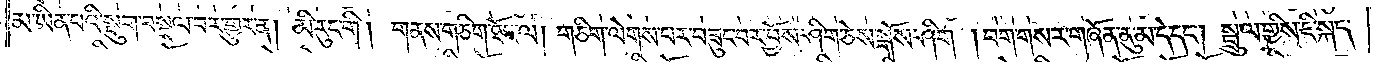མ་ཡིན་པའི་སྡུག་བསྔལ་བར་གྱུར་ན། མི་རུང་གི། གནས་གཅིག་ཐོང་ལ། གཅིག་ལེགས་པར་བཟུང་བར་བྱོས་ཤིག་ཅེས་སྒོས་ཤིག །བག་གསར་གཞོན་ནུ་མ་དེ་དང༌། སྤྲུལ་གྱིས་ཇི་སྐད་
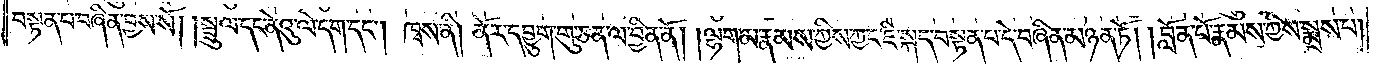བསྟན་པ་བཞིན་བྱས་སོ། །སྦྲུལ་དང་ནེའུ་ལེ་དག་དང༌། ཁྭས་ནི། ནོར་དབྱུག་གུ་ཅན་ལ་བྱིན་ནོ། །ལྷག་མ་རྣམས་ཀྱིས་ཀྱང་ཇི་སྐད་བསྟན་པ་དེ་བཞིན་མཉན་ཏོ། །བློན་པོ་རྣམས་ཀྱིས་སྨྲས་པ།
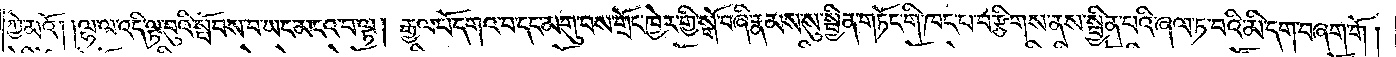ཀྱེ་མའོ། །ལྷ་ལ་འདི་ལྟ་བུའི་སྤོབས་པ་ཡང་མངའ་བ་ལྟ། རྒྱལ་པོ་དགའ་བ་དང་མགུ་བས་གྲོང་ཁྱེར་གྱི་སྒོ་བཞི་རྣམས་སུ་སྦྱིན་གཏོང་གི་ཁང་པ་བརྩིགས་ནས་སྦྱིན་པའི་ཞལ་ཏ་པའི་མི་དག་བཞག་གོ །
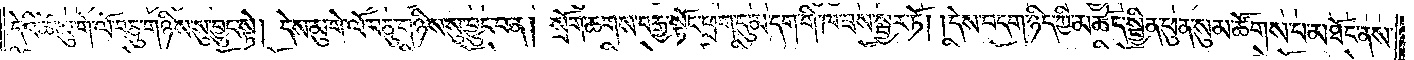དེའི་ཚེ་མུ་གེ་ལོ་བཅུ་གཉིས་སུ་བྱུང་སྟེ། དེས་མུ་གེ་ལོ་བཅུ་གཉིས་སུ་བྱུང་བ་ན། སྲོག་ཆགས་བརྒྱ་སྟོང་ཕྲག་དུ་མ་དག་གི་ཁ་ཟས་སྦྱར་ཏོ། །དེས་བདག་ཉིད་ཀྱི་མཆོད་སྦྱིན་ཕུན་སུམ་ཚོགས་པ་མཐོང་ནས་
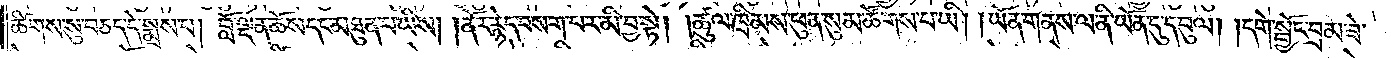ཚིགས་སུ་བཅད་དེ་སྨྲས་པ། བློ་ལྡན་ཆོས་དང་མཐུན་པ་ཡིས། ནོར་རྙེད་བསག་པར་མི་བྱ་སྟེ། །ཚུལ་ཁྲིམས་ཕུན་སུམ་ཚོགས་པ་ཡི། །ཡོན་གནས་ལ་ནི་ཡོན་དུ་དབུལ། །དགེ་སྦྱོང་བྲམ་ཟེ་
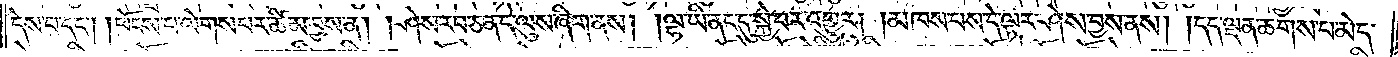དེས་པ་དང༌། །ཕོངས་པ་ལེགས་པར་ཚིམ་བྱས་ན། །ཤེས་རབ་ཅན་དེ་ལུས་ཞིག་ནས། །ལྷ་ཡི་ནང་དུ་སྐྱེ་བར་འགྱུར། །མཁས་པས་དེ་ལྟར་ཤེས་བྱས་ནས། །དད་ལྡན་ཆགས་པ་མེད་
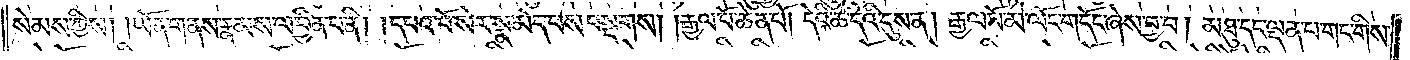སེམས་ཀྱིས། །ཡོན་གནས་རྣམས་ལ་བྱིན་པ་ནི། །དཔའ་བོ་སེར་སྣ་མེད་པས་བསྔགས། །རྒྱལ་པོ་ཆེན་པོ། དེའི་ཚེ་དེའི་དུས་ན། རྒྱལ་པོ་མེ་ལོང་གདོང་ཞེས་བྱ་བ། མཐུ་དང་ལྡན་པ་གང་གིས་
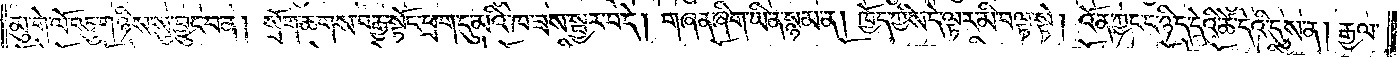མུ་གེ་ལོ་བཅུ་གཉིས་སུ་བྱུང་བ་ན། སྲོག་ཆགས་བརྒྱ་སྟོང་ཕྲག་དུ་མའི་ཁ་ཟས་སྦྱར་བ་དེ། གཞན་ཞིག་ཡིན་སྙམ་ན། ཁྱོད་ཀྱིས་དེ་ལྟར་མི་བལྟ་སྟེ། འོན་ཀྱང་ང་ཉིད་དེའི་ཚེ་དེའི་དུས་ན། རྒྱལ་
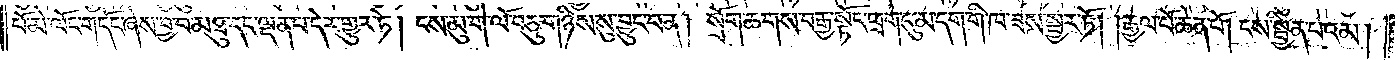པོ་མེ་ལོང་གདོང་ཞེས་བྱ་བ་མཐུ་དང་ལྡན་པ་དེར་གྱུར་ཏེ། ངས་མུ་གེ་ལོ་བཅུ་གཉིས་སུ་བྱུང་བ་ན། སྲོག་ཆགས་བརྒྱ་སྟོང་ཕྲག་དུ་མ་དག་གི་ཁ་ཟས་སྦྱར་ཏོ། །རྒྱལ་པོ་ཆེན་པོ། ངས་སྦྱིན་པའམ།
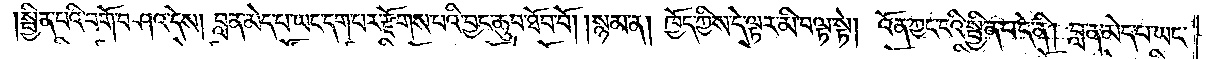སྦྱིན་པའི་བགོ་བཤའ་དེས། བླ་ན་མེད་པ་ཡང་དག་པར་རྫོགས་པའི་བྱང་ཆུབ་ཐོབ་བོ། །སྙམ་ན། ཁྱོད་ཀྱིས་དེ་ལྟར་མི་བལྟ་སྟེ། འོན་ཀྱང་ངའི་སྦྱིན་པ་དེ་ནི། བླ་ན་མེད་པ་ཡང་
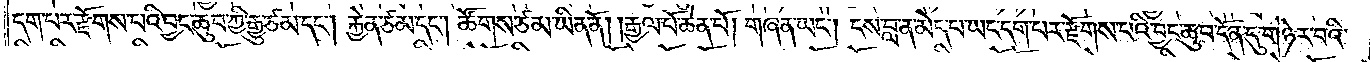དག་པར་རྫོགས་པའི་བྱང་ཆུབ་ཀྱི་རྒྱུ་ཙམ་དང༌། རྐྱེན་ཙམ་དང༌། ཚོགས་ཙམ་ཡིན་ནོ།    །རྒྱལ་པོ་ཆེན་པོ། གཞན་ཡང༌། ངས་བླ་ན་མེད་པ་ཡང་དག་པར་རྫོགས་པའི་བྱང་ཆུབ་དོན་དུ་གཉེར་བའི་
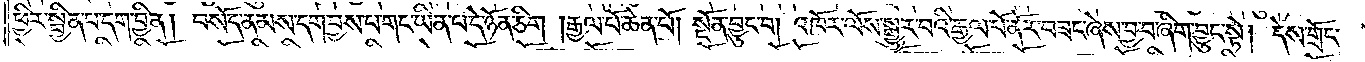ཕྱིར་སྦྱིན་པ་དག་བྱིན། བསོད་ནམས་དག་བྱས་པ་གང་ཡིན་པ་དེ་ཉོན་ཅིག །རྒྱལ་པོ་ཆེན་པོ། སྔོན་བྱུང་བ། འཁོར་ལོས་སྒྱུར་བའི་རྒྱལ་པོ་ནོར་བཟང་ཞེས་བྱ་བ་ཞིག་བྱུང་སྟེ། དེས་གྲོང་
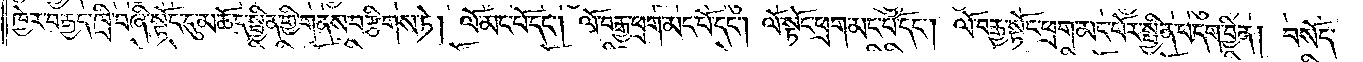ཁྱེར་བརྒྱད་ཁྲི་བཞི་སྟོང་དུ་མཆོད་སྦྱིན་གྱི་གནས་བརྩིགས་ཏེ། ལོ་མང་པོ་དང༌། ལོ་བརྒྱ་ཕྲག་མང་པོ་དང༌། ལོ་སྟོང་ཕྲག་མང་པོ་དང༌། ལོ་བརྒྱ་སྟོང་ཕྲག་མང་པོར་སྦྱིན་པ་དག་བྱིན། བསོད་
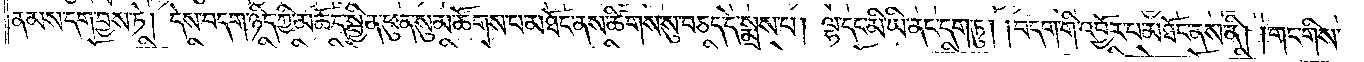ནམས་དག་བྱས་ཏེ། དེས་བདག་ཉིད་ཀྱི་མཆོད་སྦྱིན་ཕུན་སུམ་ཚོགས་པ་མཐོང་ནས་ཚིགས་སུ་བཅད་དེ་སྨྲས་པ། ལྷ་དང་མི་ཡི་ནང་དག་ཏུ། བདག་གི་འབྱོར་བ་མཐོང་ནས་ནི། གང་གིས་
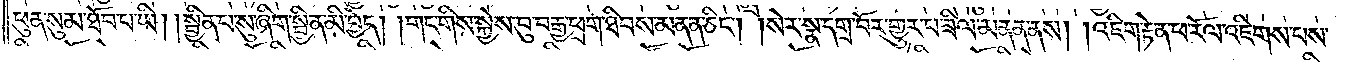ཕུན་སུམ་ཐོབ་པ་ཡི། །སྦྱིན་པ་སུ་ཞིག་སྦྱིན་མི་བྱེད། །གང་གིས་སྐྱེས་བུ་བརྒྱ་ཕྲག་ཐིབས་མནན་ཅིང༌། །སེར་སྣ་དགྲ་བོར་གྱུར་པ་ཟིལ་མནན་ནས། འཇིག་རྟེན་ཕ་རོལ་འཇིགས་པས་
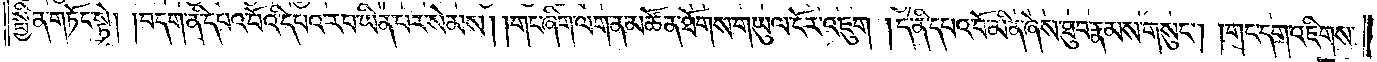སྦྱིན་གཏོང་སྟེ། བདག་ནི་དཔའ་བོའི་དཔའ་རབ་ཡིན་པར་སེམས། །གང་ཞིག་ལག་ན་མཚོན་ཐོགས་གཡུལ་ངོར་འཇུག །དེ་ནི་དཔའ་བོ་མིན་ཞེས་ཐུབ་རྣམས་གསུང༌། །གང་དག་འཇིགས་
